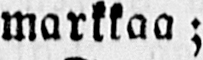markkaa;
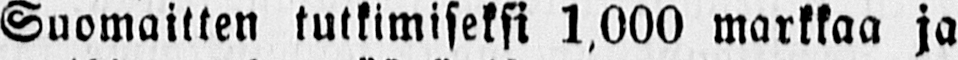Suomaitten tutkimiseksi 1,000 markkaa ja
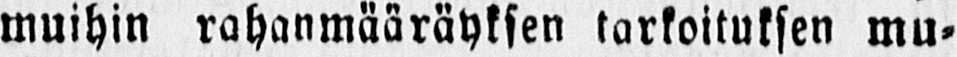muihin rahanmääräyksen tarkoituksen mu-
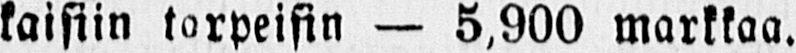kaisiin tarpeisin — 5,900 markkaa.
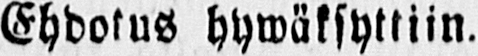Ehdotus hywäksyttiin.
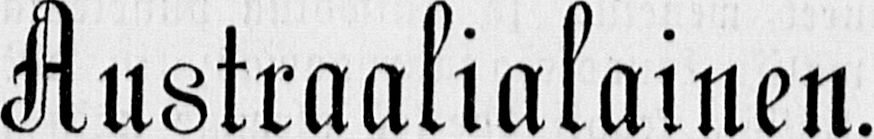Austraalialainen.
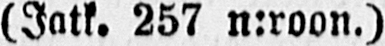(Jatk. 257 n:roon.)
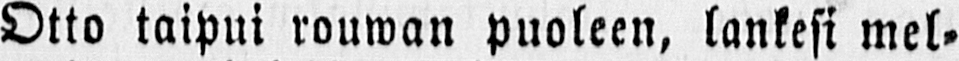Otto taipui rouwan puoleen, lankesi mel-
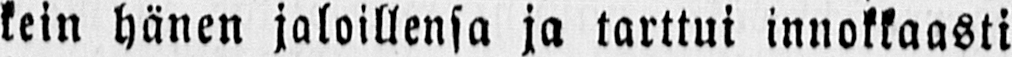kein hänen jaloillensa ja tarttui innokkaasti
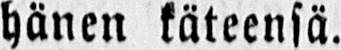hänen käteensä.
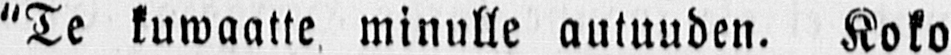"Te kuwaatte minulle autuuden. Koko
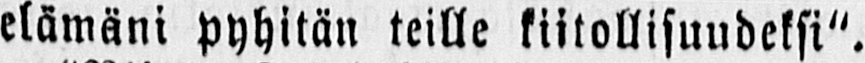elämäni pyhitän teille kiitollisuudeksi".
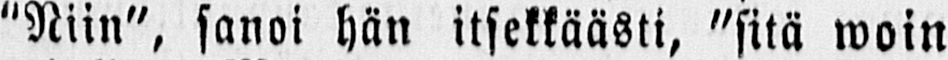"Niin", sanoi hän itsekkäästi, "sitä woin
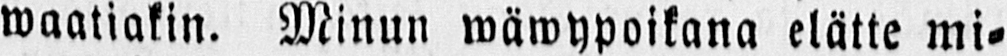waatiakin. Minun wäwypoikana elätte mi-
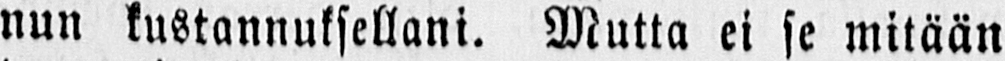nun kustannuksellani. Mutta ei se mitään
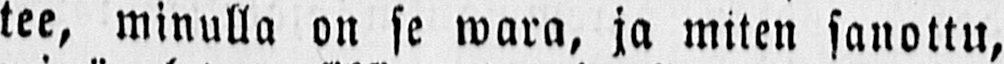tee, minulla on se wara, ja miten sanottu,
